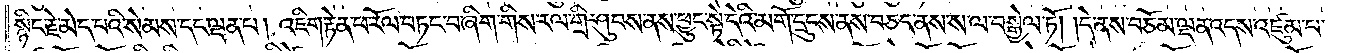སྙིང་རྗེ་མེད་པའི་སེམས་དང་ལྡན་པ། འཇིག་རྟེན་ཕ་རོལ་བཏང་བ་ཞིག་གིས་རལ་གྲི་ཤུབས་ནས་ཕྱུང་སྟེ་དེའི་མགོ་དྲུངས་ནས་བཅད་ནས་ས་ལ་བསྒྱེལ་ཏོ། །དེ་ནས་བཅོམ་ལྡན་འདས་འཛུམ་པ་
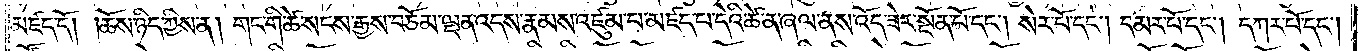མཛད་དོ། །ཆོས་ཉིད་ཀྱིས་ན། གང་གི་ཚེ་སངས་རྒྱས་བཅོམ་ལྡན་འདས་རྣམས་འཛུམ་པ་མཛད་པ་དེའི་ཚེ་ན་ཞལ་ནས་འོད་ཟེར་སྔོན་པོ་དང༌། སེར་པོ་དང༌། དམར་པོ་དང༌། དཀར་པོ་དང༌།
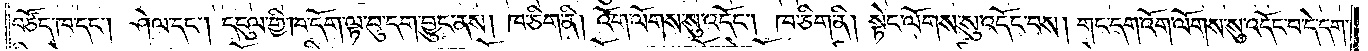བཙོད་ཁ་དང༌། ཤེལ་དང༌། དངུལ་གྱི་ཁ་དོག་ལྟ་བུ་དག་བྱུང་ནས། ཁ་ཅིག་ནི། འོག་ལོགས་སུ་འདོང༌། ཁ་ཅིག་ནི། སྟེང་ལོགས་སུ་འདོང་བས། གང་དག་འོག་ལོགས་སུ་འདོང་བ་དེ་དག་
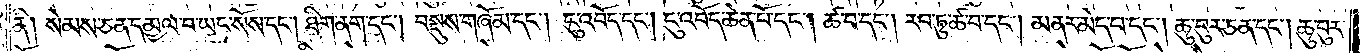ནི། སེམས་ཅན་དམྱལ་བ་ཡང་སོས་དང༌། ཐིག་ནག་དང༌། བསྡུས་གཞོམ་དང༌། ངུ་འབོད་དང༌། ངུ་འབོད་ཆེན་པོ་དང༌། ཚ་བ་དང༌། རབ་ཏུ་ཚ་བ་དང༌། མནར་མེད་པ་དང༌། ཆུ་བུར་ཅན་དང༌། ཆུ་བུར་
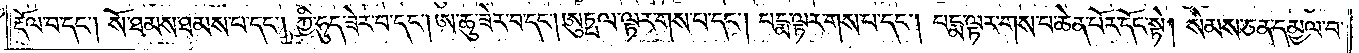རྡོལ་བ་དང༌། སོ་ཐམས་ཐམས་པ་དང༌། ཀྱི་ཧུད་ཟེར་བ་དང༌། ཨ་ཆུ་ཟེར་བ་དང༌། ཨུཏྤལ་ལྟར་གས་པ་དང༌། པདྨ་ལྟར་གས་པ་དང༌། པདྨ་ལྟར་གས་པ་ཆེན་པོར་དོང་སྟེ། སེམས་ཅན་དམྱལ་བ་
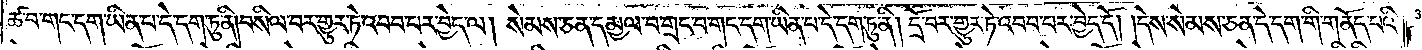ཚ་བ་གང་དག་ཡིན་པ་དེ་དག་ཏུ་ནི།བསིལ་བར་གྱུར་ཏེ་འབབ་པར་བྱེད་ལ། སེམས་ཅན་དམྱལ་བ་གྲང་བ་གང་དག་ཡིན་པ་དེ་དག་ཏུ་ནི། དྲོ་བར་གྱུར་ཏེ་འབབ་པར་བྱེད་དོ། །དེས་སེམས་ཅན་དེ་དག་གི་གནོད་པའི་
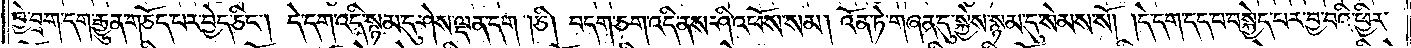བྱེ་བྲག་དག་རྒྱུན་གཅོད་པར་བྱེད་ཅིང༌། དེ་དག་འདི་སྙམ་དུ་ཤེས་ལྡན་དག །ཅི། བདག་ཅག་འདི་ནས་ཤི་འཕོས་སམ། འོན་ཏེ་གཞན་དུ་སྐྱེས་སྙམ་དུ་སེམས་སོ། །དེ་དག་དད་པ་བསྐྱེད་པར་བྱ་བའི་ཕྱིར་
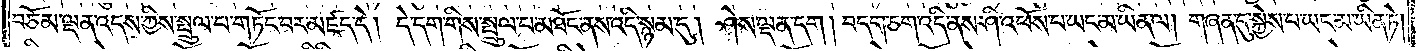བཅོམ་ལྡན་འདས་ཀྱིས་སྤྲུལ་པ་གཏོང་བར་མཛད་དེ། དེ་དག་གིས་སྤྲུལ་པ་མཐོང་ནས་འདི་སྙམ་དུ། ཤེས་ལྡན་དག །བདག་ཅག་འདི་ནས་ཤི་འཕོས་པ་ཡང་མ་ཡིན་ལ། གཞན་དུ་སྐྱེས་པ་ཡང་མ་ཡིན་ཏེ།
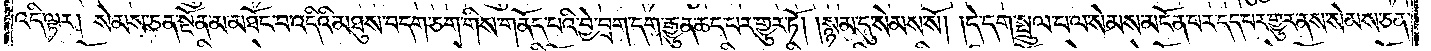འདི་ལྟར། སེམས་ཅན་སྔོན་མ་མཐོང་བ་འདིའི་མཐུས་བདག་ཅག་གིས་གནོད་པའི་བྱེ་བྲག་དག་རྒྱུན་ཆད་པར་གྱུར་ཏོ། །སྙམ་དུ་སེམས་སོ། །དེ་དག་སྤྲུལ་པ་ལ་སེམས་མངོན་པར་དད་པར་གྱུར་ནས་སེམས་ཅན་
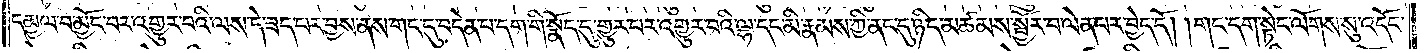དམྱལ་བ་མྱོང་བར་འགྱུར་བའི་ལས་དེ་ཟད་པར་བྱས་ནས་གང་དུ་བདེན་པ་དག་གི་སྣོད་དུ་གྱུར་པར་འགྱུར་བའི་ལྷ་དང་མི་རྣམས་ཀྱི་ནང་དུ་ཉིད་མཚམས་སྦྱོར་བ་ལེན་པར་བྱེད་དོ། །གང་དག་སྟེང་ལོགས་སུ་འདོང་
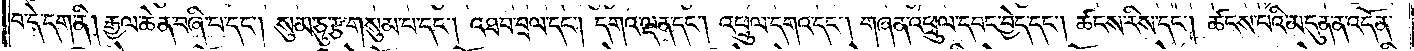བ་དེ་དག་ནི། རྒྱལ་ཆེན་བཞི་པ་དང༌། སུམ་ཅུ་རྩ་གསུམ་པ་དང༌། འཐབ་བྲལ་དང༌། དགའ་ལྡན་དང༌། འཕྲུལ་དགའ་དང༌། གཞན་འཕྲུལ་དབང་བྱེད་དང༌། ཚངས་རིས་དང༌། ཚངས་པའི་མདུན་ན་འདོན་
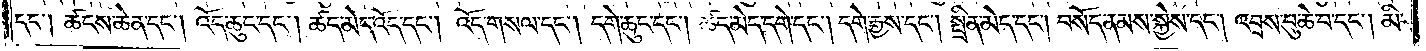དང༌། ཚངས་ཆེན་དང༌། འོད་ཆུང་དང༌། ཚད་མེད་འོད་དང༌། འོད་གསལ་དང༌། དགེ་ཆུང་དང༌། ཚད་མེད་དགེ་དང༌། དགེ་རྒྱས་དང༌། སྤྲིན་མེད་དང༌། བསོད་ནམས་སྐྱེས་དང༌། འབྲས་བུ་ཆེ་བ་དང༌། མི་
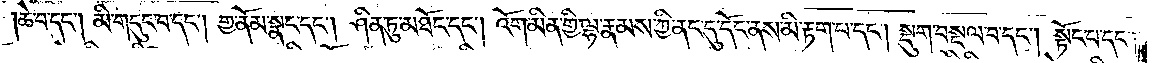།ཆེ་བ་དང༌། མི་གདུང་བ་དང༌། གྱ་ནོམ་སྣང་དང༌། ཤིན་ཏུ་མཐོང་དང༌། འོག་མིན་གྱི་ལྷ་རྣམས་ཀྱི་ནང་དུ་དོང་ནས་མི་རྟག་པ་དང༌། སྡུག་བསྔལ་བ་དང༌། སྟོང་པ་དང༌།
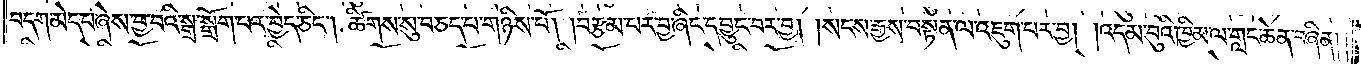བདག་མེད་པ་ཞེས་བྱ་བའི་སྒྲ་སྒྲོག་པར་བྱེད་ཅིང༌། ཚིགས་སུ་བཅད་པ་གཉིས་པོ། །བརྩམ་པར་བྱ་ཞིང་དབྱུང་བར་བྱ། །སངས་རྒྱས་བསྟན་ལ་འཇུག་པར་བྱ། །འདམ་བུའི་ཁྱིམ་ལ་གླང་ཆེན་བཞིན། །
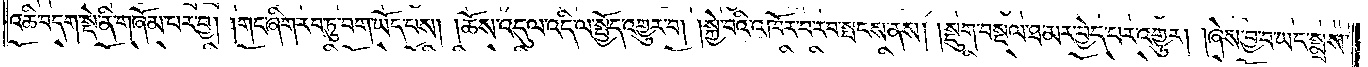འཆི་བདག་སྡེ་ནི་གཞོམ་པར་བྱ། །གང་ཞིག་རབ་ཏུ་བག་ཡོད་པས། །ཆོས་འདུལ་འདི་ལ་སྤྱོད་འགྱུར་བ། །སྐྱེ་བའི་འཁོར་བ་རབ་སྤངས་ནས། །སྡུག་བསྔལ་ཐ་མར་བྱེད་པར་འགྱུར། །ཞེས་བྱ་བ་ཡང་སྨྲས་
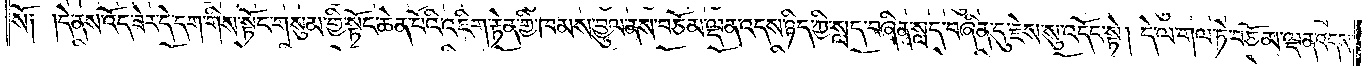སོ༑ །དེ་ནས་འོད་ཟེར་དེ་དག་གིས་སྟོང་གསུམ་གྱི་སྟོང་ཆེན་པོའི་འཇིག་རྟེན་གྱི་ཁམས་བྱུལ་ནས་བཅོམ་ལྡན་འདས་ཉིད་ཀྱི་སླད་བཞིན་སླད་བཞིན་དུ་རྗེས་སུ་འདོང་སྟེ། དེ་ལ་གལ་ཏེ་བཅོམ་ལྡན་འདས་
